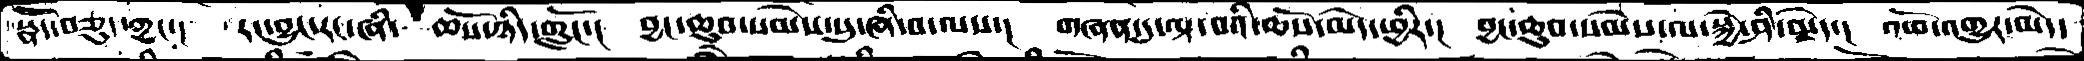སྣོད་བཅུད་ཀྱང་། རང་བྱུང་རང་ཞི་ཆོས་ཉིད་གློང་།  བྱང་ཆུབ་སེམས་སུ་ཞི་བ་ལས་། གཞན་དུ་ལྟ་བའི་ཆོས་མེད་ཕྱིར་། བྱང་ཆུབ་སེམས་ལ་སྐྱེ་ཤི་མེད་། འཕོ་འགྱུར་མེད་
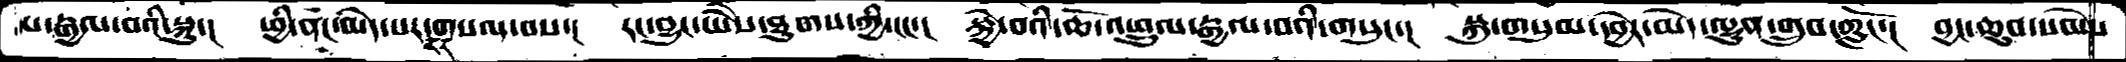པ་རྒྱལ་བའི་སྐུ་། ཕྱི་ནང་མེད་པར་རང་གསལ་བས་།  རང་བྱུང་ཡཻས་ཐུགས་ཀྱི་ངང་། སྐྱེ་བའི་ཆོ་འཕྲུལ་རྒྱལ་བའི་གསུང་། སྐུ་གསུམ་དབྱེར་མེད་ལྷུན་གྲུབ་ཀློང་། བྱང་ཆུབ་སེམས
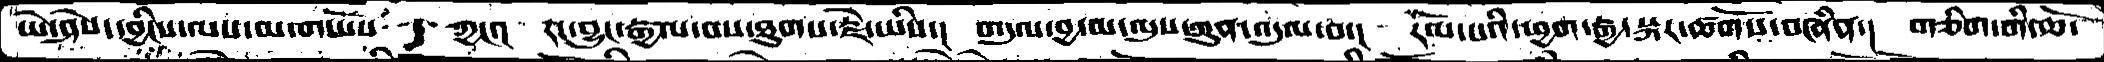ཡེ་ཤེས་དབྱིངས་ལས་མ་གཡོས་་་ཀྱང་། རང་བྱུང་རྒྱལ་བས་ཐུགས་རྗེ་ཡིས་། གདུལ་བྱ་མ་ལུས་ཀུན་འདུལ་བ་། རོལ་པའི་ཕྱག་རྒྱ་སྐར་ཚོགས་བཞིན་། གཅིག་གི་ཆོ་
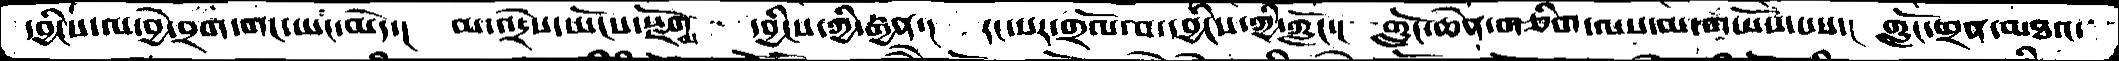དབྱྱིངས་ལ་བྱེ་བྲག་གང་ཡང་མེད་།  མ་འདྲེས་ཡོངས་སྫོགས  དབྱིངས་ཀྱི་རྒྱན་།  རང་སར་གྲོལ་བ་དབྱིངས་ཀྱི་ཀློང་།  གློང་ཆེན་གཅིག་ལས་མ་གཡོས་པས་།  གློང་ཕྲན་མཐའ་
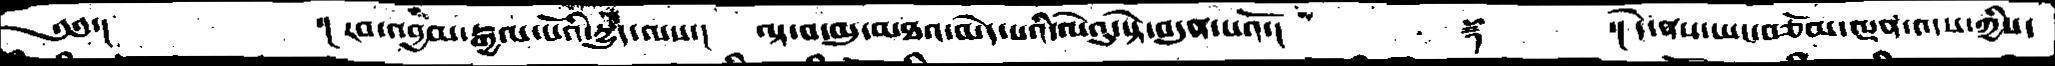༄༅་།   ་།རབ་འབྱམ་རྒྱལ་པོའི་དྱུད་ལས་།  ལྟ་བ་མུ་མཐའ་མེད་པའི་ལེའུ་སྟེ་བདུན་པའོ་།   ༈   ་། དེ་ནས་ཡང་བཅོམ་ལྡན་འདས་ཀྱིས་
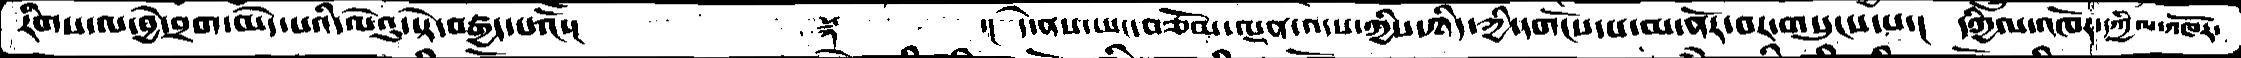རིགས་ལ་བྱེ་བྲག་མེད་པའི་ལེའུ་སྟེ་བརྒྱད་པའོ་།     ༈     ་། དེ་ནས་ཡང་བཅོམ་ལྡན་འདས་ཀྱིས་ཉིད་ཀྱི་དགོངས་པ་མ་ནོར་བར་གསུངས་པ་།  དཀྱིལ་འཁོར་དཀྱིལ་འཁོར་
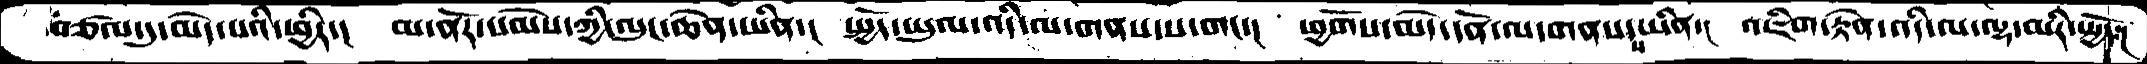བཙལ་དུ་མེེད་པའི་ཕྱིར་།  མ་ནོར་སེམས་ཀྱི་ལུང་ཆེན་ཡིན་།  སྤྱོད་ཡུལ་འདི་ལ་གནས་པ་གང་།   ཕྱོགས་མེད་དོན་ལ་གནས་ས་ཡིན་།  འཇིག་རྟེན་འདི་ལ་ལྷ་མིར་སྤྱོད་།
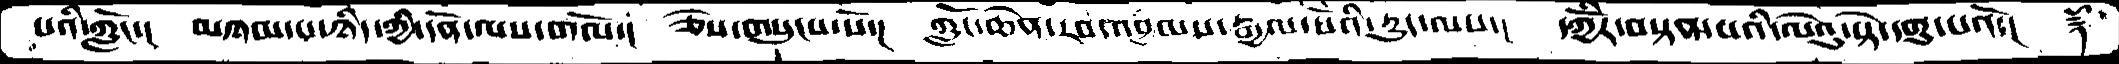པའི་ཀློང་།  མཉམ་པ་ཉིད་ཀྱི་དོན་ལས་གོལ་།  ཅེས་གསུངས་སོ་།  ཀློང་ཆེན་རབ་འབྱམས་རྒྱལ་པོའི་དྱུད་ལས་།  དཀྱོིར་བསྟན་པའི་ལེའུ་སྟེ་དགུ་པའོ་།  ༈
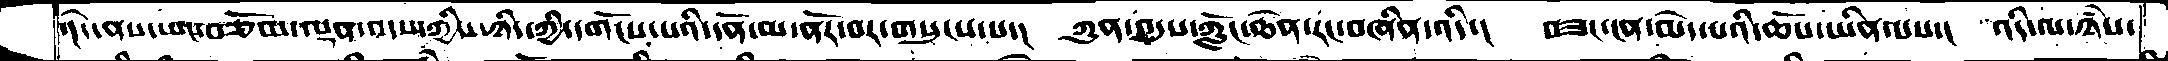་།དེ་ནས་ཡང་བཅོམ་ལྡན་འདས་ཀྱིས་ཉིད་ཀྱི་དགོངས་པའི་དོན་མ་ནོར་བར་གསུངས་པ་།  ཀུན་འདུས་ཀློང་ཆེན་རང་བཞིན་འདི་།  བཟང་ངན་མེད་པའི་ཆོས་ཡིན་པས་།  འདི་ལ་ཉཾས་
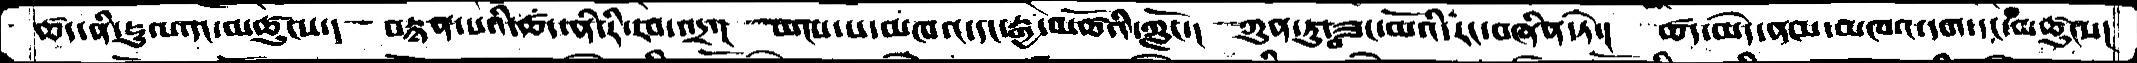ཚད་ནི་རྡུལ་དང་མཚུངས་།  བརྙན་པའི་ཚད་ནི་རི་རབ་འདྲ་།  ཡངས་པ་མཁའ་དང་རྒྱ་མཚོའི་ཀློང་།  ཀུན་ཏུ་བཟང་མོའི་རང་བཞིན་ཏེ་།  ཚད་མེད་ནམ་མཁའ་དག་དང་མཚུངས།
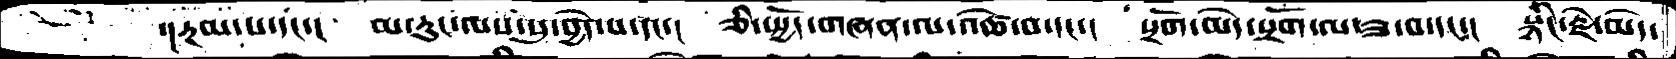་།རྔམ་པ་་དང་།  མ་རུང་ལས་སུ་བྱེད་པ་དང་།  ཅི་སྤྱོད་གཞན་ལ་འཚེ་བ་དང་།  སྲོག་མེད་སྲོག་ལ་ཟ་བ་དང་།  སྙིང་རྗེ་མེད་
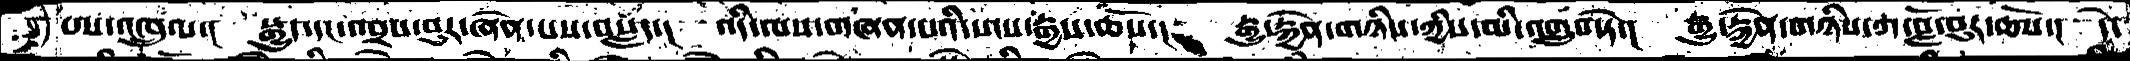ཨ་འཁྲུལ་།  སྒྱུད་དང་འབྲས་བུར་ཞེན་པས་བསླད་།  འདི་ལས་གཞན་པའི་སངས་རྒྱས་ཆོས་།  རྒྱུ་རྐྱེན་གཉིས་ཀྱིས་མི་འགྲུབ་སྟེ་།  རྒྱུ་རྐྱེན་གཉིས་ཀ་བློ་བུར་ཆོས་།  དེ་
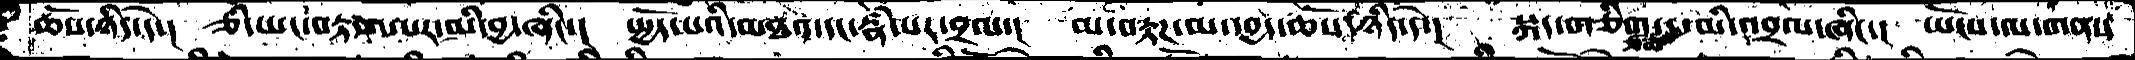ཆོས་ཉིད་དེ་།  ཅི་ཡང་བརྟག་པར་མི་བྱ་ཞིང་།  སྤྱོད་པའི་མཐའ་དང་རྣྃ་པར་བྲལ་།  མ་བརྟཌ་མ་དབྱད་ཆོས་ཉིད་དེ་།  སྐད་གཅིག་ཙམ་དུ་མི་འབྲལ་ཞིང་།  ཡོངས་ལ་གནས་
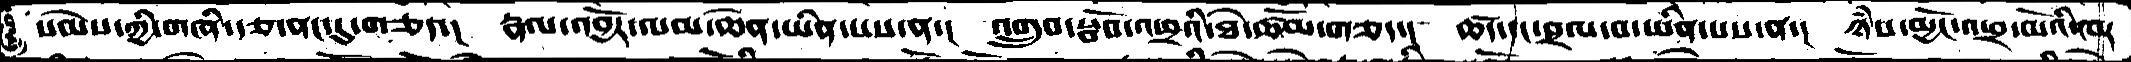སེམས་ཀྱི་གཞི་རྩ་ནང་དུ་གཅད་།  རྣལ་འབྱོར་ལམ་ཆེན་ཡིན་པས་ན་། འགྲུབ་སྦོབ་འཕྲའི་ཐེ་ཚོམ་གཅད་།  ཚད་དང་བྲལ་བ་ཡིན་པས་ན་།  ཉཾས་མྱོང་འཕྲ་མོའི་བར་
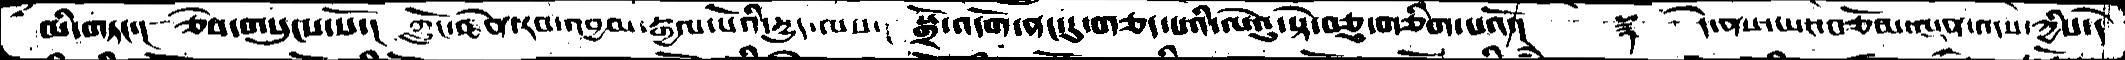མི་གཏང་།  ཅེས་གསུངས་སོ་།  ཀྱོང་ཆེན་རབ་འབྱམ་རྒྱལ་པོའི་རྒྱུད་ལས་།  སྒྲོ་འདོག་ནང་དུ་གཅད་པའི་ལེའུ་བཅུ་གཅིག་པའོ་།  ༈  དེ་ནས་ཡང་བཅོམ་ལྡན་འདས་ཀྱིས་དེ
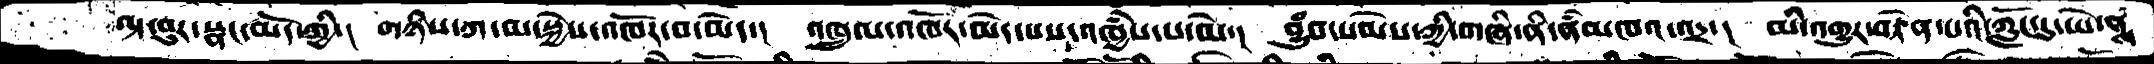ལྟ་བུར་སྣང་མོད་ཀྱི་།  གཉིས་ཀ་མ་སྐྱེས་འཁོར་བ་མེད་།  འཁྲུལ་འཁོར་མེད་པས་འཁྱཾས་པ་མེ་།  བྱུཾབ་སེམས་ཀྱི་གཞི་ནི་ནཾམཁའ་འདྲ་།   མི་འགྱུར་བརྟེན་པའི་ཀློང་དུ་ཡེ་ནས
